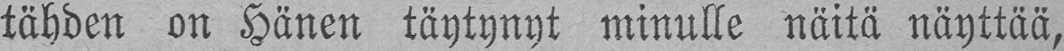tähden on Hänen täytynyt minulle näitä näyttää,
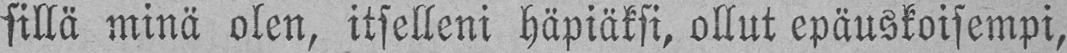sillä minä olen, itselleni häpiäksi, ollut epäuskoisempi,
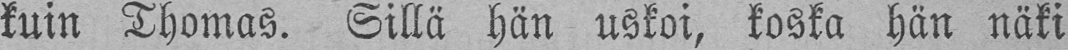kuin Thomas. Sillä hän uskoi, koska hän näki
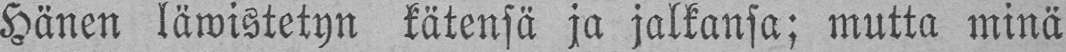Hänen läwistetyn kätensä ja jalkansa; mutta minä
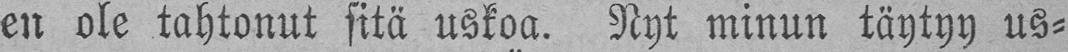en ole tahtonut sitä uskoa. Nyt minun täytyy us-
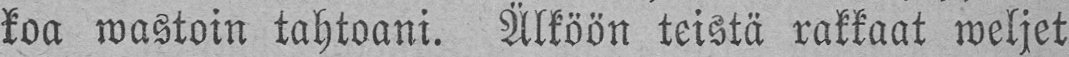koa wastoin tahtoani. Älköön teistä rakkaat weljet
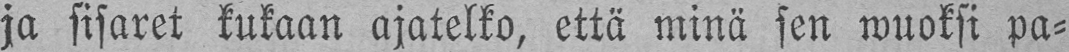ja sisaret kukaan ajatelko, että minä sen wuoksi pa-
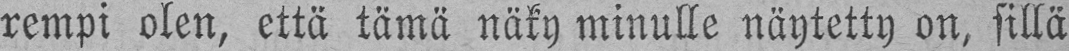rempi olen, että tämä näky minulle näytetty on, sillä
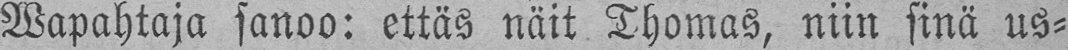Wapahtaja sanoo: ettäs näit Thomas, niin sinä us-
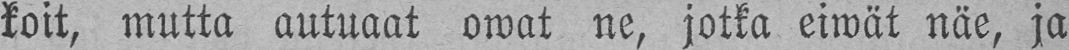koit, mutta autuaat owat ne, jotka eiwät näe, ja
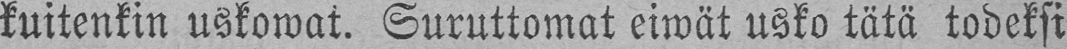kuitenkin uskowat. Suruttomat eiwät usko tätä todeksi
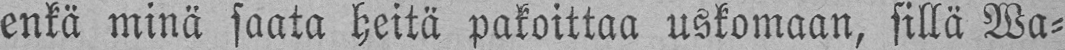enkä minä saata heitä pakoittaa uskomaan, sillä Wa-
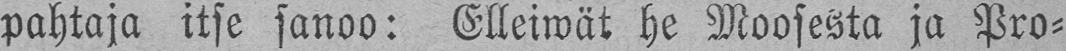pahtaja itse sanoo: Elleiwät he Moosesta ja Pro-
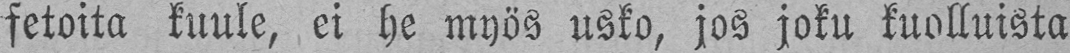fetoita kuule, ei he myös usko, jos joku kuolluista
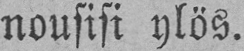nousisi ylös.
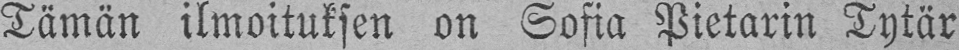Tämän ilmoituksen on Sofia Pietarin Tytär
